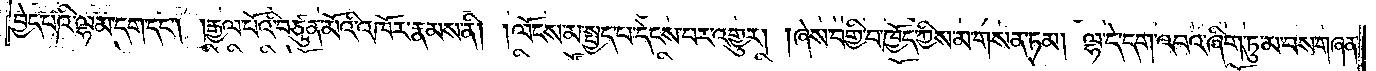བྱེད་པའི་ལྷམ་དག་དང༌། །རྒྱལ་པོའི་བཙུན་མོའི་འཁོར་རྣམས་ནི། །ལོངས་མ་སྤྱད་པ་དེངས་པར་འགྱུར། །ཞེས་བགྱི་བ་ཁྱོད་ཀྱིས་མ་གསན་ཏམ། ལྷ་དེ་དག་འབའ་ཞིག་ཏུ་མ་བས་གཞན་
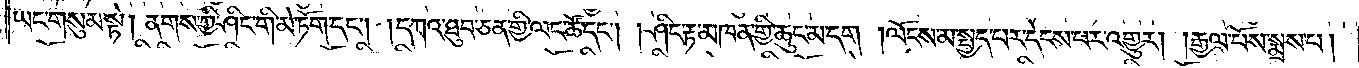ཡང་གསུམ་སྟེ། ནགས་ཀྱི་ཤིང་གི་མེ་ཏོག་དང༌། །དཀའ་ཐུབ་ཅན་གྱི་ལང་ཚོ་དང༌། །ཤིང་རྟ་མཁན་གྱི་ཆུང་མ་དག །ལོངས་མ་སྤྱད་པར་དེངས་པར་འགྱུར། །རྒྱལ་པོས་སྨྲས་པ།
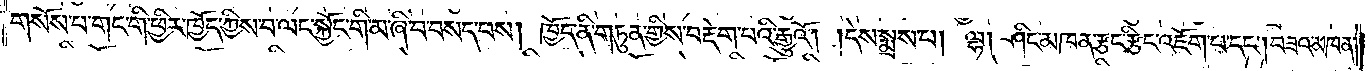གསོས་པ་གང་གི་ཕྱིར་ཁྱོད་ཀྱིས་བ་ལང་སྐྱོང་གི་མ་ཞི་བ་བསད་པས། ཁྱོད་ནི་གཏུན་གྱིས་བརྡེག་པའི་རྒྱུའོ། །དེས་སྨྲས་པ། ལྷ། ཤིང་མཁན་རྩང་རྩིང་འཇོག་པ་དང༌། བཟའ་མཁན་
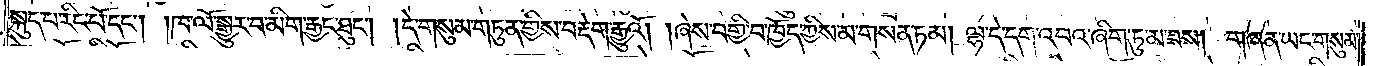སྐུད་པ་རིང་པོ་དང༌། །ཁ་ལོ་སྒྱུར་བ་མིག་རྒྱང་ཐུང༌། །དེ་གསུམ་གཏུན་གྱིས་བརྡེག་རྒྱུའོ། །ཞེས་བགྱི་བ་ཁྱོད་ཀྱིས་མ་གསན་ཏམ། ལྷ་དེ་དག་འབའ་ཞིག་ཏུ་མ་བས། གཞན་ཡང་གསུམ་
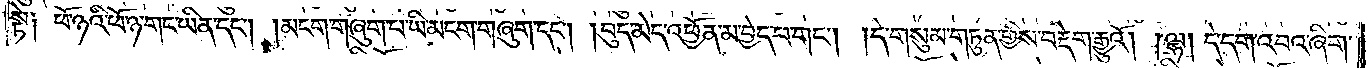སྟེ༑ ཕོ་ཉའི་ཕོ་ཉ་གང་ཡིན་དང༌། །མངག་གཞུག་པ་ཡི་མངག་གཞུག་དང༌། །བུད་མེད་འཕྱོན་མ་བྱེད་པ་གང༌། །དེ་གསུམ་གཏུན་གྱིས་བརྡེག་རྒྱུའོ། །ལྷ། དེ་དག་འབའ་ཞིག་
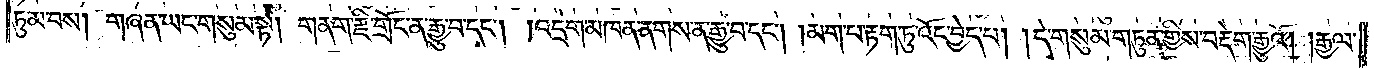ཏུ་མ་བས། གཞན་ཡང་གསུམ་སྟེ། གནག་རྫི་གྲོང་ན་རྒྱུ་བ་དང༌། །འདྲེག་མཁན་ནགས་ན་རྒྱུ་བ་དང༌། །མག་པ་རྟག་ཏུ་འོང་བྱེད་པ། །དེ་གསུམ་གཏུན་གྱིས་བརྡེག་རྒྱུའོ། །རྒྱལ་
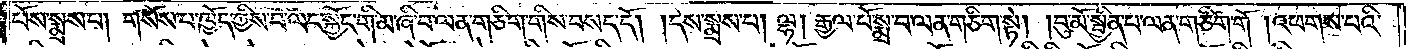པོས་སྨྲས་པ། གསོས་པ་ཁྱོད་ཀྱིས་བ་ལང་སྐྱོང་གི་མ་ཞི་བ་ལན་གཅིག་གིས་བསད་དོ། །དེས་སྨྲས་པ། ལྷ། རྒྱལ་པོ་སྨྲ་བ་ལན་གཅིག་སྟེ། །བུ་མོ་སྦྱིན་པ་ལན་གཅིག་གོ། །འཕགས་པའི་
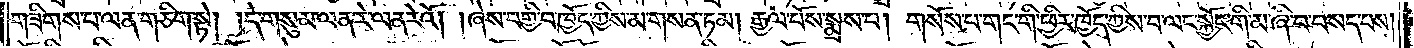གཟིགས་པ་ལན་གཅིག་སྟེ། །དེ་གསུམ་ལན་རེ་ལན་རེའོ། །ཞེས་བགྱི་བ་ཁྱོད་ཀྱིས་མ་གསན་ཏམ། རྒྱལ་པོས་སྨྲས་པ། གསོས་པ་གང་གི་ཕྱིར་ཁྱོད་ཀྱིས་བ་ལང་སྐྱོང་གི་མ་ཞི་བ་བསད་པས།
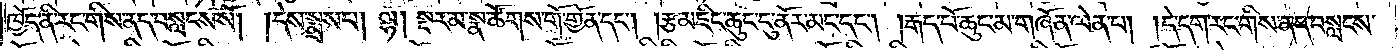ཁྱོད་ནི་རང་གིས་ནད་བསླངས་སོ། །དེས་སྨྲས་པ། ལྷ། སྔར་མ་སྣ་ཚོགས་གོ་གྱོན་དང༌། །རྩ་མཇིང་ཆུང་ངུ་ནོར་མང་དང༌། །རྒད་པོ་ཆུང་མ་གཞོན་ལེན་པ། །དེ་དག་རང་གིས་ནད་བསླངས་
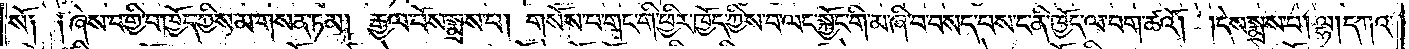སོ༑ ༑ཞེས་བ་གྱི་བ་ཁྱོད་ཀྱིས་མ་གསན་ཏམ། རྒྱལ་པོས་སྨྲས་པ། གསོས་པ་གང་གི་ཕྱིར་ཁྱོད་ཀྱིས་བ་ལང་སྐྱོང་གི་མ་ཞི་བ་བསད་པས་ང་ནི་ཁྱོད་ལ་བག་ཚའོ། །དེས་སྨྲས་པ། ལྷ། དཀའ་
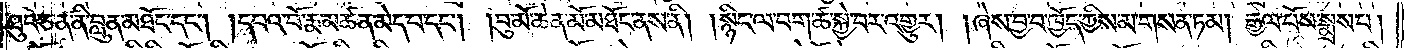ཐུབ་ཅན་ནི་བླུན་མཐོང་དང༌། །དཔའ་བོ་རྨ་མཚན་མེད་པ་དང༌། །བུ་མོ་ཆེན་མོ་མཐོང་ནས་ནི། །སྙིང་ལ་བག་ཚ་སྐྱེ་བར་འགྱུར། །ཞེས་བྱ་བ་ཁྱོད་ཀྱིས་མ་གསན་ཏམ། རྒྱལ་པོས་སྨྲས་པ།
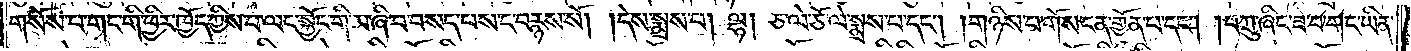གསོས་པ་གང་གི་ཕྱིར་ཁྱོད་ཀྱིས་བ་ལང་སྐྱོང་གི་མ་ཞི་བ་བསད་པས་ང་བརྙས་སོ། །དེས་སྨྲས་པ། ལྷ། ཅ་ལེ་ཅོ་ལེ་སྨྲས་པ་དང༌། །གཉིས་པ་གོས་ངན་གྱོན་པ་དང༌། །བཀྲུ་ཞིང་ཟ་བ་གང་ཡིན་
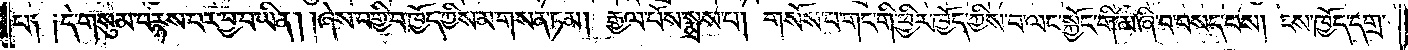པ༑ ༑དེ་གསུམ་བརྙས་པར་བྱ་བ་ཡིན། །ཞེས་བགྱི་བ་ཁྱོད་ཀྱིས་མ་གསན་ཏམ། རྒྱལ་པོས་སྨྲས་པ། གསོས་པ་གང་གི་ཕྱིར་ཁྱོད་ཀྱིས་བ་ལང་སྐྱོང་གི་མ་ཞི་བ་བསད་པས། ངས་ཁྱོད་དགྲ་
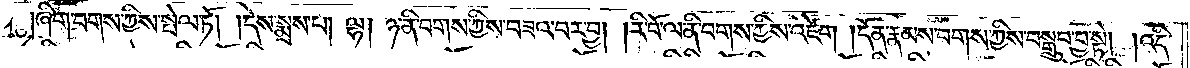ཞིག་བགས་ཀྱིས་སྤེལ་ཏོ། །དེས་སྨྲས་པ། ལྷ། ཉ་ནི་བགས་ཀྱིས་བཟའ་བར་བྱ། །རི་བོ་ལ་ནི་བགས་ཀྱིས་འཛེག །དོན་རྣམས་བགས་ཀྱིས་བསྒྲུབ་བྱ་སྟེ། །འདི་
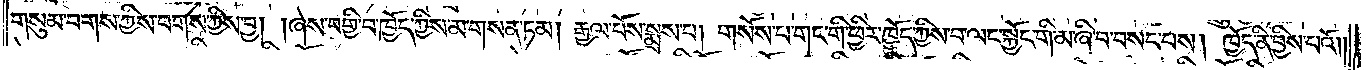གསུམ་བགས་ཀྱིས་བགས་ཀྱིས་བྱ། །ཞེས་བགྱི་བ་ཁྱོད་ཀྱིས་མ་གསན་ཏམ། རྒྱལ་པོས་སྨྲས་པ། གསོས་པ་གང་གི་ཕྱིར་ཁྱོད་ཀྱིས་བ་ལང་སྐྱོང་གི་མ་ཞི་བ་བསད་པས། ཁྱོད་ནི་བྱིས་པའོ༎
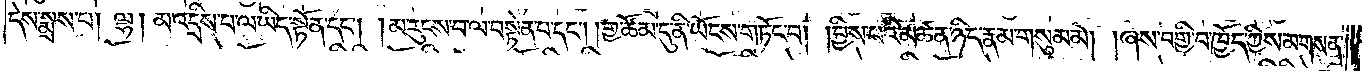དེས་སྨྲས་པ། ལྷ། མ་འདྲིས་པ་ལ་ཡིད་སྟོན་དང༌། །མ་རུངས་པ་ལ་བསྟེན་པ་དང༌། །གྱ་ཚོམ་དུ་ནི་ཡོངས་གཏོང་བ། །བྱིས་པའི་མཚན་ཉིད་རྣམ་གསུམ་མོ། །ཞེས་བགྱི་བ་ཁྱོད་ཀྱིས་མ་གསན་
